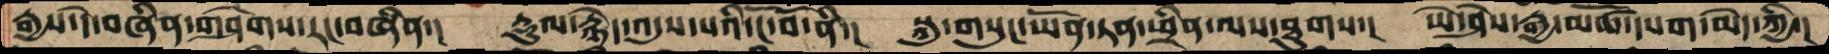རྒྱས་དེ་བཞིན་གཤེགས་རང་བཞིན་།  རྡུལ་རྙེད་འདུས་པའི་ངོ་བོ་ནི་།  སྐུ་གསུང་ཡོན་ཏན་ཕྲིན་ལས་ཐུགས་།  ཡེ་ཤེས་རྒྱ་མཚོ་དཔག་མེད་ཀྱི་།
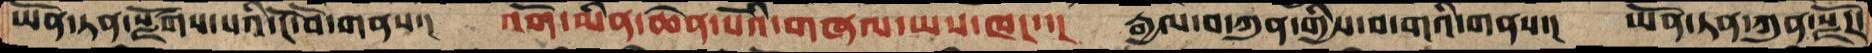ཡོན་ཏན་སྫོགས་པའི་ངོབ་ོ་གནས་།  འོག་མིན་ཆེན་པོའི་གཞལ་ཡས་ཁང་་།  རྒྱལ་བ་ཀུན་གྱིས་བ་གའི་གནས་།  ཡོན་ཏན་ཀུན་སྫོཌ་
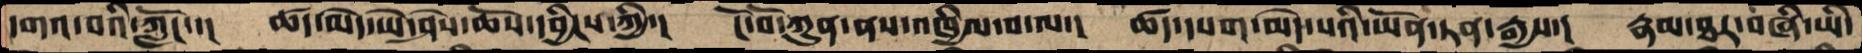དགའ་བའི་ཀློང་་།  ཚད་མེད་ཡེ་ཤེས་ཆོས་དབྱིངས་ཀྱི་།  ངོ་བོ་ཀུན་ནས་འཁྱིལ་བ་ལ་།  ཚད་དཔག་མེད་པའི་ཡོན་ཏན་རྒྱས་།  རྣམ་ཐར་བཞི་ཡི་
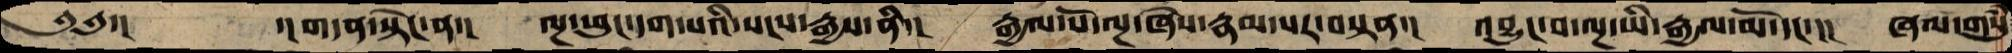༄༅་།      ་།གདན་སྟེང་ན་།  ལྔ་ཕུང་དག་པའི་སངས་རྒྱས་ནི་།  རྒྱལ་པོ་ལྔ་ཞེས་རྣམ་པར་བསྟན་།  འབྱུང་བ་ལྔ་ཡི་རྒྱལ་མོ་དང་།། ཞལ་གསུཾ
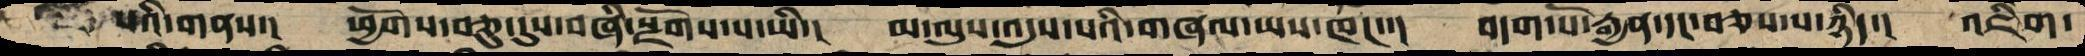པའི་གནས་། ཕྱོགས་བཅུ་དུས་བཞི་སྫོགས་པ་ཡི་། མ་ལུས་འདུས་པའི་གཞལ་ཡས་ཁང་་། བདག་པོ་རྒྱན་དང་བཅས་པ་ཉིད་། འཇིག་
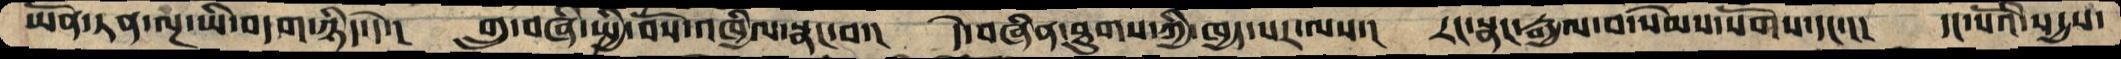ཡོན་ཏན་ལྔ་ཡི་བདག་ཉིད་དེ་།  གྲུ་བཞི་སྤྱི་བོས་འཁྱིལ་སྣང་བ་།  དེ་བཞིན་ཐུགས་ཀྱི་ཁྱད་པར་ལས་།  རང་སྣང་རྒྱལ་བ་སེམས་སོགས་དང་།།  དང་པོའི་སདྱས་
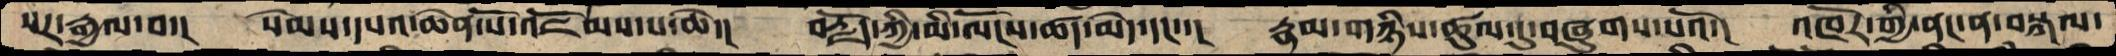པར་རྒྱལ་བ་།  སེམས་དཔའ་ཆེན་པོ་འཇོམས་པ་ཆེ་།  བརྗོད་ཀྱི་མི་ལོངས་ཚད་མེད་དང་་།  རྣམ་གཉིས་ཚུལ་དུ་བཞུགས་པའོ་།  འཁོར་གྱི་ནང་ན་བསྐལ་
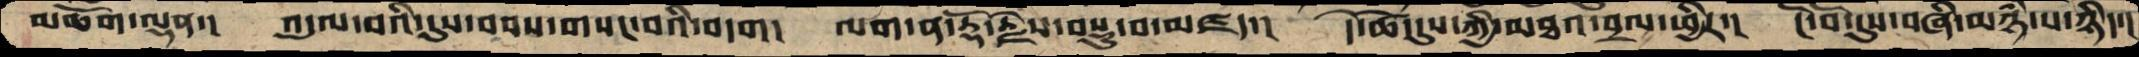མཆོག་ལྡན་།  འདུལ་བའི་དུས་བབས་གསང་བའི་བདག།  ལག་ན་རྡོ་རྗེས་བསྡུ་བ་མཛད་།  དེ་ཚེ་དུས་ཀྱི་མཐའ་བྲལ་ཕྱིར་།  ངོ་བོ་དུས་བཞི་མཉཾ་པ་ཉིད་།
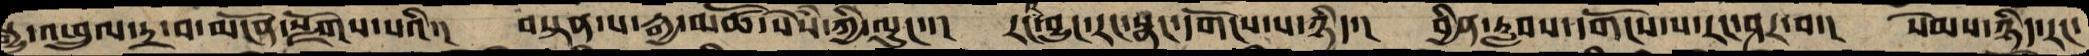སྒྱུ་འཕྲུལ་དྲ་བ་མངོན་སྫོགས་པའི་། བསྟན་པ་རྒྱ་མཚོ་སེཾས་ཀྱི་ལྟུང་་། རང་འབྱུང་རང་སྣང་དགོངས་པ་ཉིད་། བྱིན་རླབས་དགོངས་པ་རང་ཤར་བ་། སེམས་ཉིད་རང་
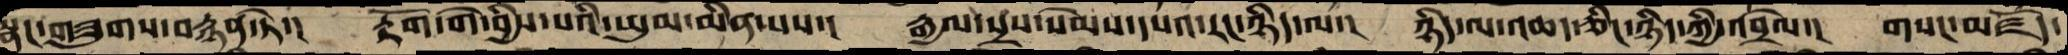སྣང་གཟུགས་བརྙན་ཏེ་།  རྟོག་གེ་བྱིས་པའི་ཡུམ་མིན་པས་།  རྒྱལ་སྲས་སེམས་དཔའ་རང་ཉིད་ལ་།  ཉིད་ལ་འཆད་ཅིང་ཉིད་ཀྱི་འབྲེལ་།  གསང་མཛོད་
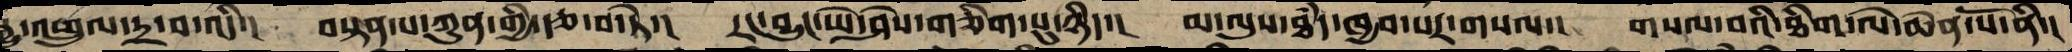སྒྱུ་འཕྲུལ་དྲ་བ་འདི་།  བསྟན་པ་ཀུན་གྱི་རྩ་བ་ཏེ་།  རང་བྱུང་ཡེ་ཤེས་གཅིག་པུ་ཉིད་།  མ་ལུས་ཐདཾ་ཁྱབ་པར་གསལ་།  གསལ་བའི་ཐིག་ལེ་ཆེན་པོ་ནི་།
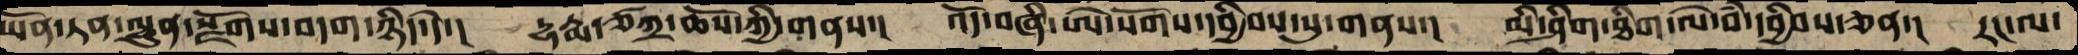ཡོན་ཏན་ལྷུན་སྫོགས་བདག་ཉིད་དེ་།  དྷརྨ་ཙཀྲ་ཆོས་ཀྱི་གནས་།  འོད་བཞི་ཨེ་སོགས་དབྱིབས་སུ་གནས་།   མི་ཤིག་ཐིག་ལེ་བཾ་དབྱིབས་ཅན་།  རང་ལ་
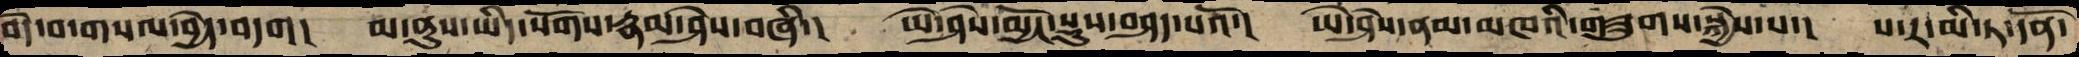བདེ་བ་གསལ་བྱེད་བདག།  མ་ནུས་ཡིད་སོགས་རྣམ་ཤེས་བཞི་།  ཡེ་ཤེས་མྱོང་སྡུས་བཤད་པའོ་།  ཡེ་ཤེས་ནམ་མཁའི་གཟུགས་སྐྱེས་པ་།  པ་ར་མི་ཏ་དོན་
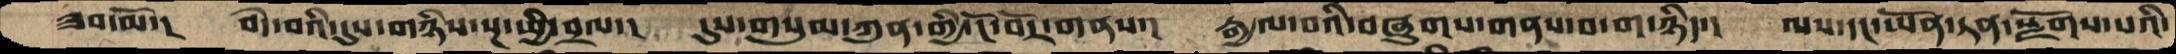ཟབ་མོ་།  བདེ་བའི་དུས་གཉིས་སྔ་ཕྱི་བྲལ་།  དུས་གསུམ་ཀུན་གྱི་ངོ་བོར་གནས་།  རྒྱལ་བའི་བཞུགས་གནས་བ་ག་ཉིད་།  ལས་དང་ཡོན་ཏན་སྫོགས་པའི་
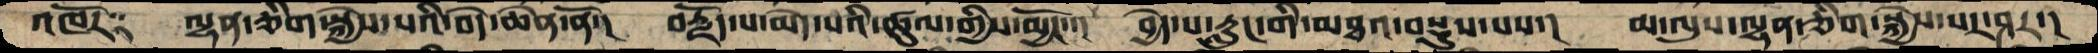འཁོར༑  ལྷན་ཅིག་སྐྱེས་པའི་བདེ་ཆེན་ནོ་།  བརྗོད་པ་མེད་པའི་ཚུལ་གྱིས་མྱོང་་།  བྱེད་པ་རླུང་གི་མཐའ་བསྡུས་པས་།  མ་ལུས་ལྷན་ཅིག་སྐྱེས་པར་ཤར་།
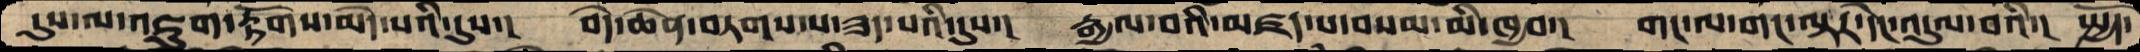དུས་ལ་འཇུག་རྟོགས་མེད་པའི་དུས་།  བདེ་ཆེན་བཏགས་པ་ཟད་པའི་དུས་།  རྒྱལ་བའི་མཛད་པ་བསམ་མི་ཁྱབ་།   གང་ལ་གང་ལྟར་དེང་འདུལ་བའི་།  སྤྱོད་
